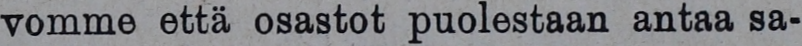vomme että osastot puolestaan antaa sa-
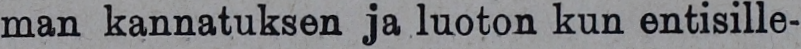man kannatuksen ja luoton kun entisille-
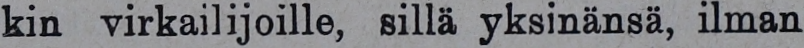kin virkailijoille, sillä yksinänsä, ilman
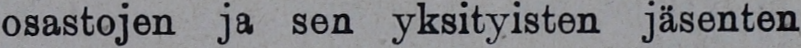osastojen ja sen yksityisten jäsenten
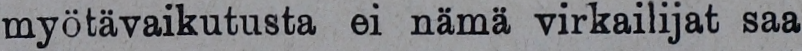myötävaikutusta ei nämä virkailijat saa
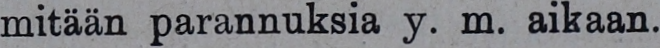mitään parannuksia y. m. aikaan.
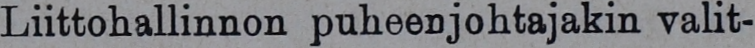Liittohallinnon puheenjohtajakin valit-
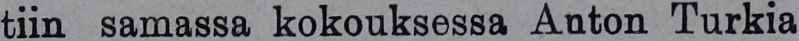tiin samassa kokouksessa Anton Turkia
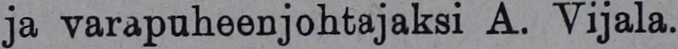ja varapuheenjohtajaksi A. Vijala.
